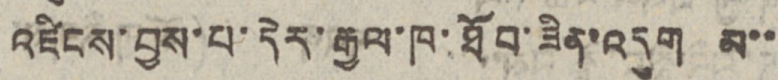འཛིངས་བྱས་པ་དེར་རྒྱལ་ཁ་ཐོབ་ཟིན་འདུག མ་་
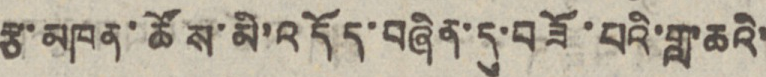རྩ་མཁན་ཚོས་མི་འདོད་བཞིན་དུ་བཟོ་པའི་གླ་ཆའི་
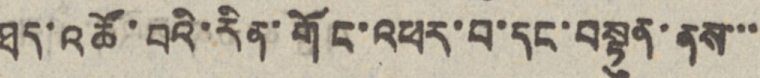ཐད་འཚོ་བའི་རིན་གོང་འཕར་བ་དང་བསྟུན་ནས་་་
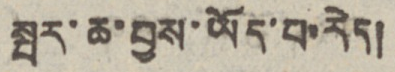སྤར་ཆ་བྱས་ཡོད་པ་རེད།
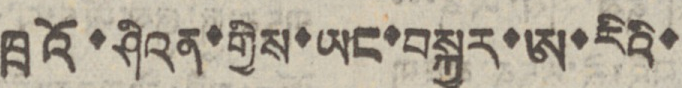ཁྲོའ་ཤིའན་གྱིས་ཡང་བསྐྱར་ཨ་རིའི་
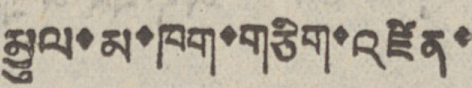མྱུལ་མ་ཁག་གཅིག་འཛིན་
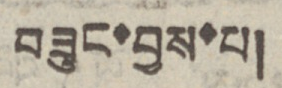བཟུང་བྱས་པ།
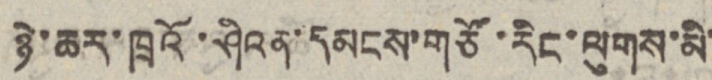ཉེ་ཆར་ཁྲའོ་ཤིའན་དམངས་གཙོ་རིང་ལུགས་མི་
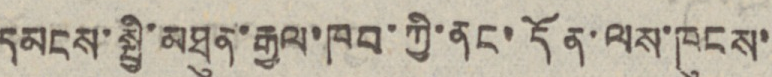དམངས་སྤྱི་མཐུན་རྒྱལ་ཁབ་ཀྱི་ནང་དོན་ལས་ཁུངས་
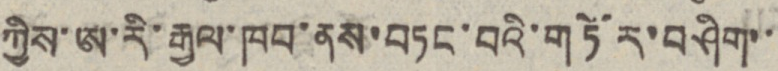ཀྱིས་ཨ་རི་རྒྱལ་ཁབ་ནས་བཏང་བའི་གཏོར་བཤིག་་
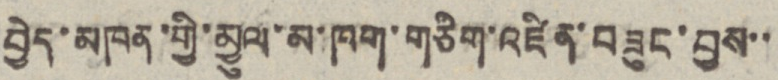བྱེད་མཁན་གྱི་མྱུལ་མ་ཁག་གཅིག་འཛིན་བཟུང་བྱས་་
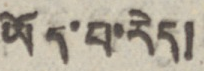ཡོད་པ་རེད།
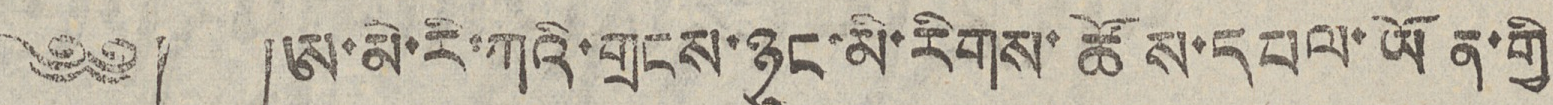༄༅། །ཨ་མེ་རི་ཀའི་གྲངས་ཉུང་མི་རིགས་ཚོས་དཔལ་ཡོན་གྱི་
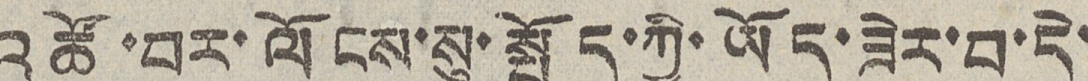འཚོ་བར་ལོངས་སུ་སྤྱོད་ཀྱི་ཡོད་ཟེར་བ་དེ་
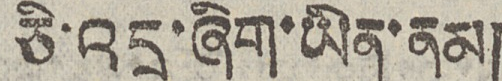ཅི་འདྲ་ཞིག་ཡིན་ནམ།
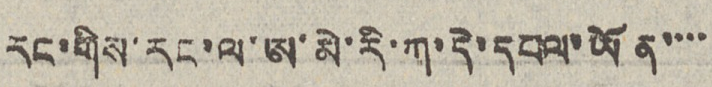རང་གིས་རང་ལ་ཨ་མེ་རི་ཀ་དེ་དཔལ་ཡོན་་་་
